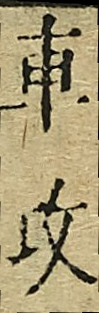車攻
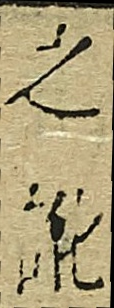之訛
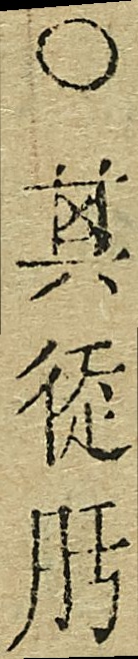○其徙？
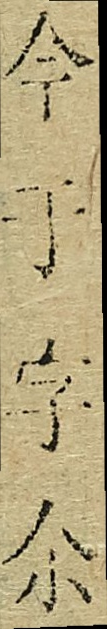今于字尒
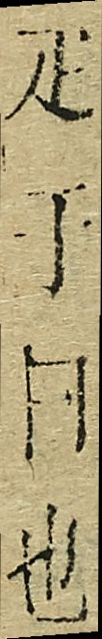疋于闩也
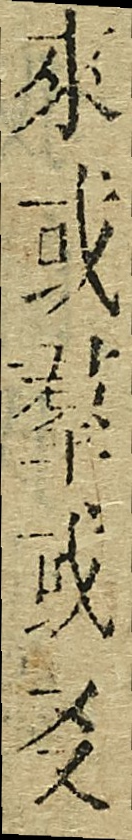來或𦤎或㕛
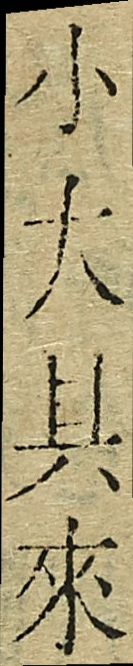小大其來
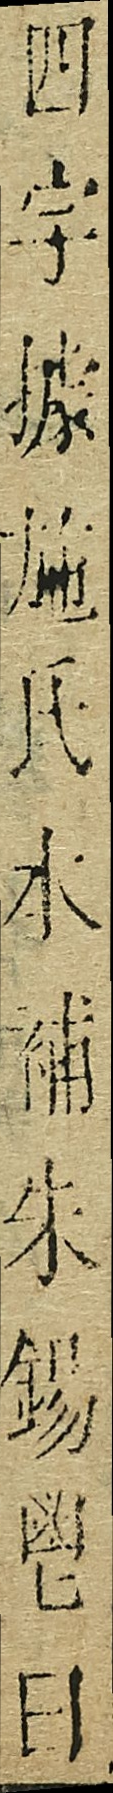四字據施氏水補朱錫鬯日
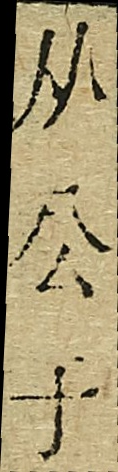从公于
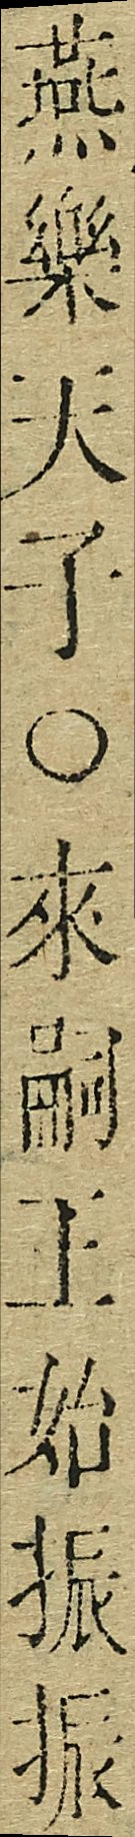燕樂天子○來嗣王始振振
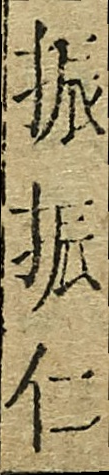振振仁
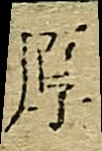厚
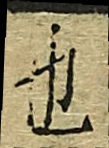也
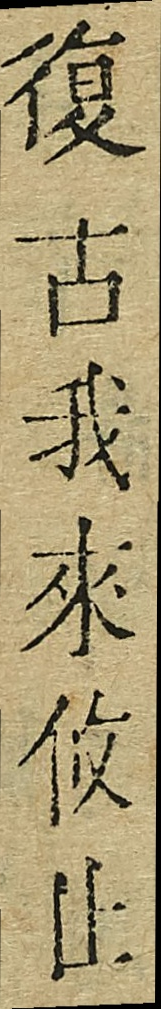復古我來攸止
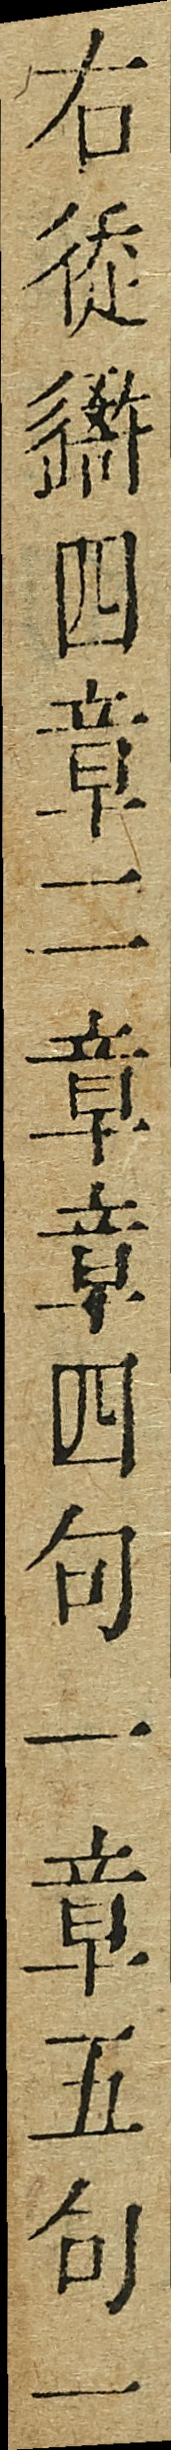右徙？四章二章章四句一章五句一
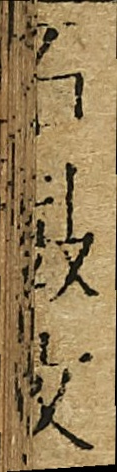石鼓文
